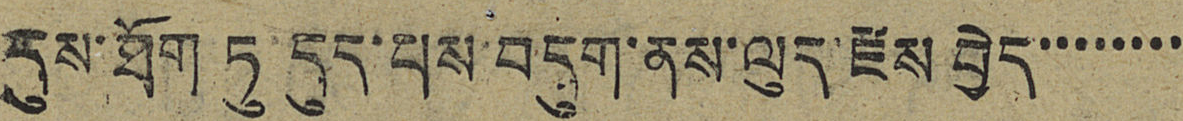དུས་ཐོག ཏུ་དུད་པས་བདུག་ནས་ལུད་རྫས་བྱེད་་་་་་་་་
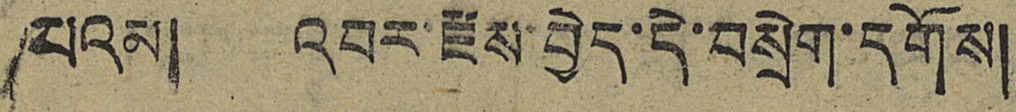པའམ། འབར་རྫས་བྱེད་དེ་བསྲེག་དགོས།
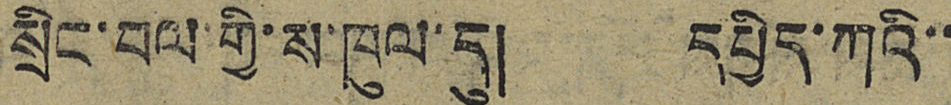སྲིང་བལ་གྱི་ས་ཁུལ་དུ། དཔྱིད་ཀའི་་
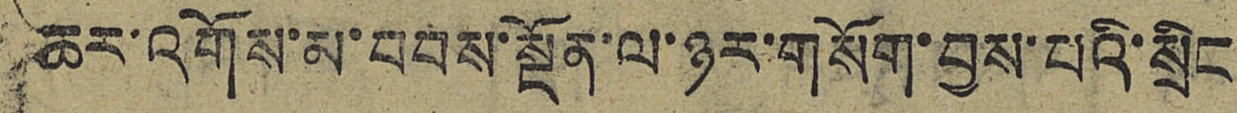ཆར་འགོས་མ་བབས་སྔོན་ལ་ཉར་གསོག་བྱས་པའི་སྲིང
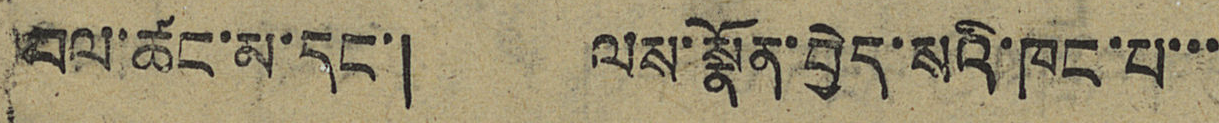བལ་ཚང་མ་དང་། ལས་སྣོན་བྱེད་སའི་ཁང་པ་་་
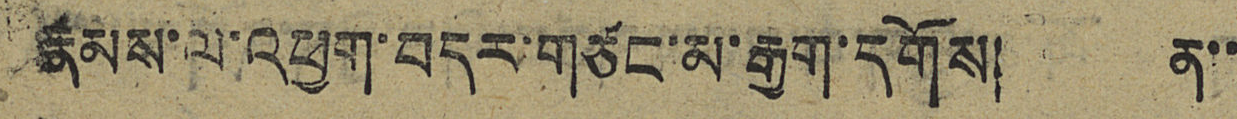རྣམས་ལ་འཕྱག་བདར་གཙང་མ་རྒྱག་དགོས། ན་་
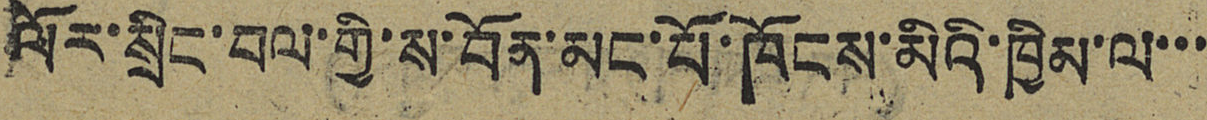ལོར་སྲིང་བལ་གྱི་ས་བོན་མང་པོ་ཁོངས་མིའི་ཁྱིམ་ལ་་་
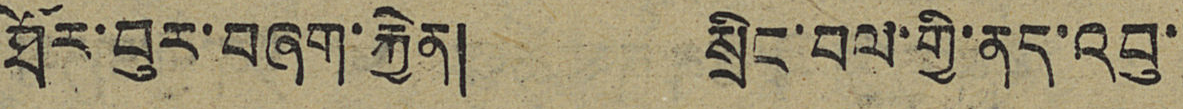ཐོར་བུར་བཞག་རྐྱེན། སྲིང་བལ་གྱི་ནད་འབུ་་
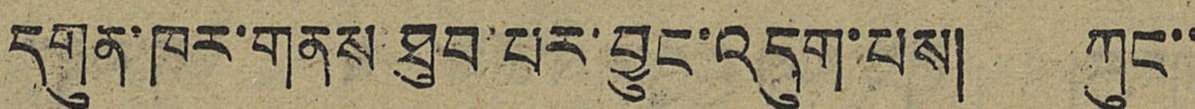དགུན་ཁར་གནས ཐུབ་པར་བྱུང་འདུག་པས། ཀུང་་
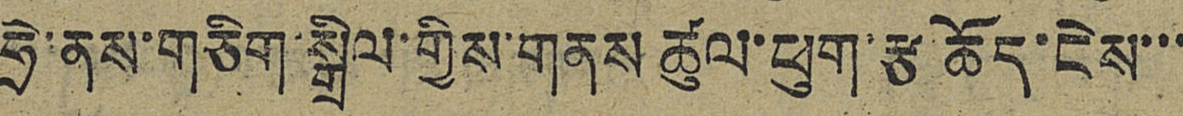ཧྲེ་ནས་གཅིག་སྒྲིལ་གྱིས་གནས ཚུལ་ཕུག་རྩ ཆོད་ངེས་་་
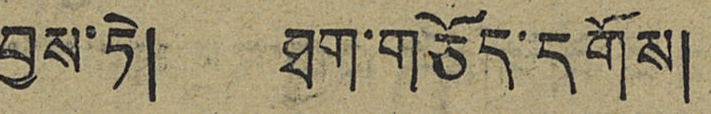བྱས་ཏེ། ཐག་གཅོད་དགོས།
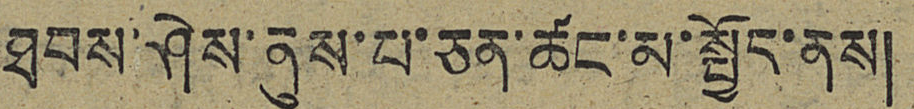ཐབས་ཤེས་ནུས་པ་ཅན་ཚང་མ་སྤྱོད་ནས།
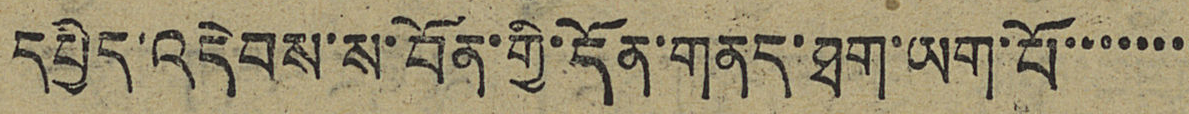དཔྱིད་འདེབས་ས་བོན་གྱི་དོན་གནད་ཐག་ཡག་པོ་་་་་་་་
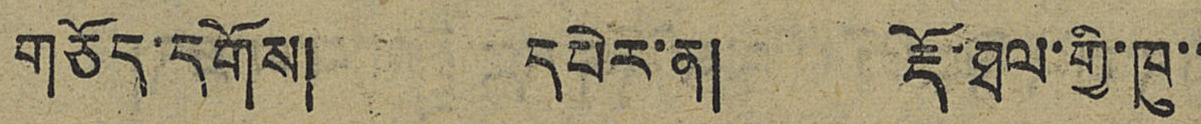གཅོད་དགོས། དཔེར་ན། རྡོ་ཐལ་གྱི་ཁུ་་
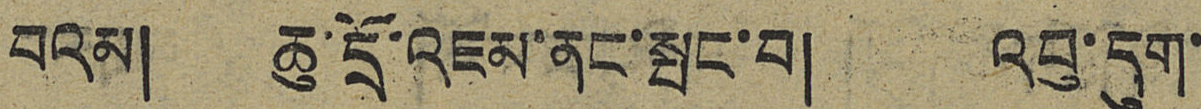བའམ། ཆུ་དྲོ་འཇམ་ནང་སྤང་བ། འབུ་དུག་
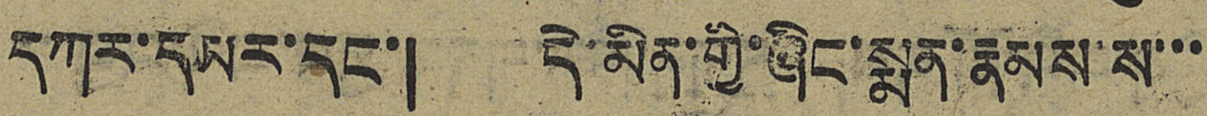དཀར་དམར་དང་། དེ་མིན་གྱི་ཞིང་སྨན་རྣམས་ས་་་
